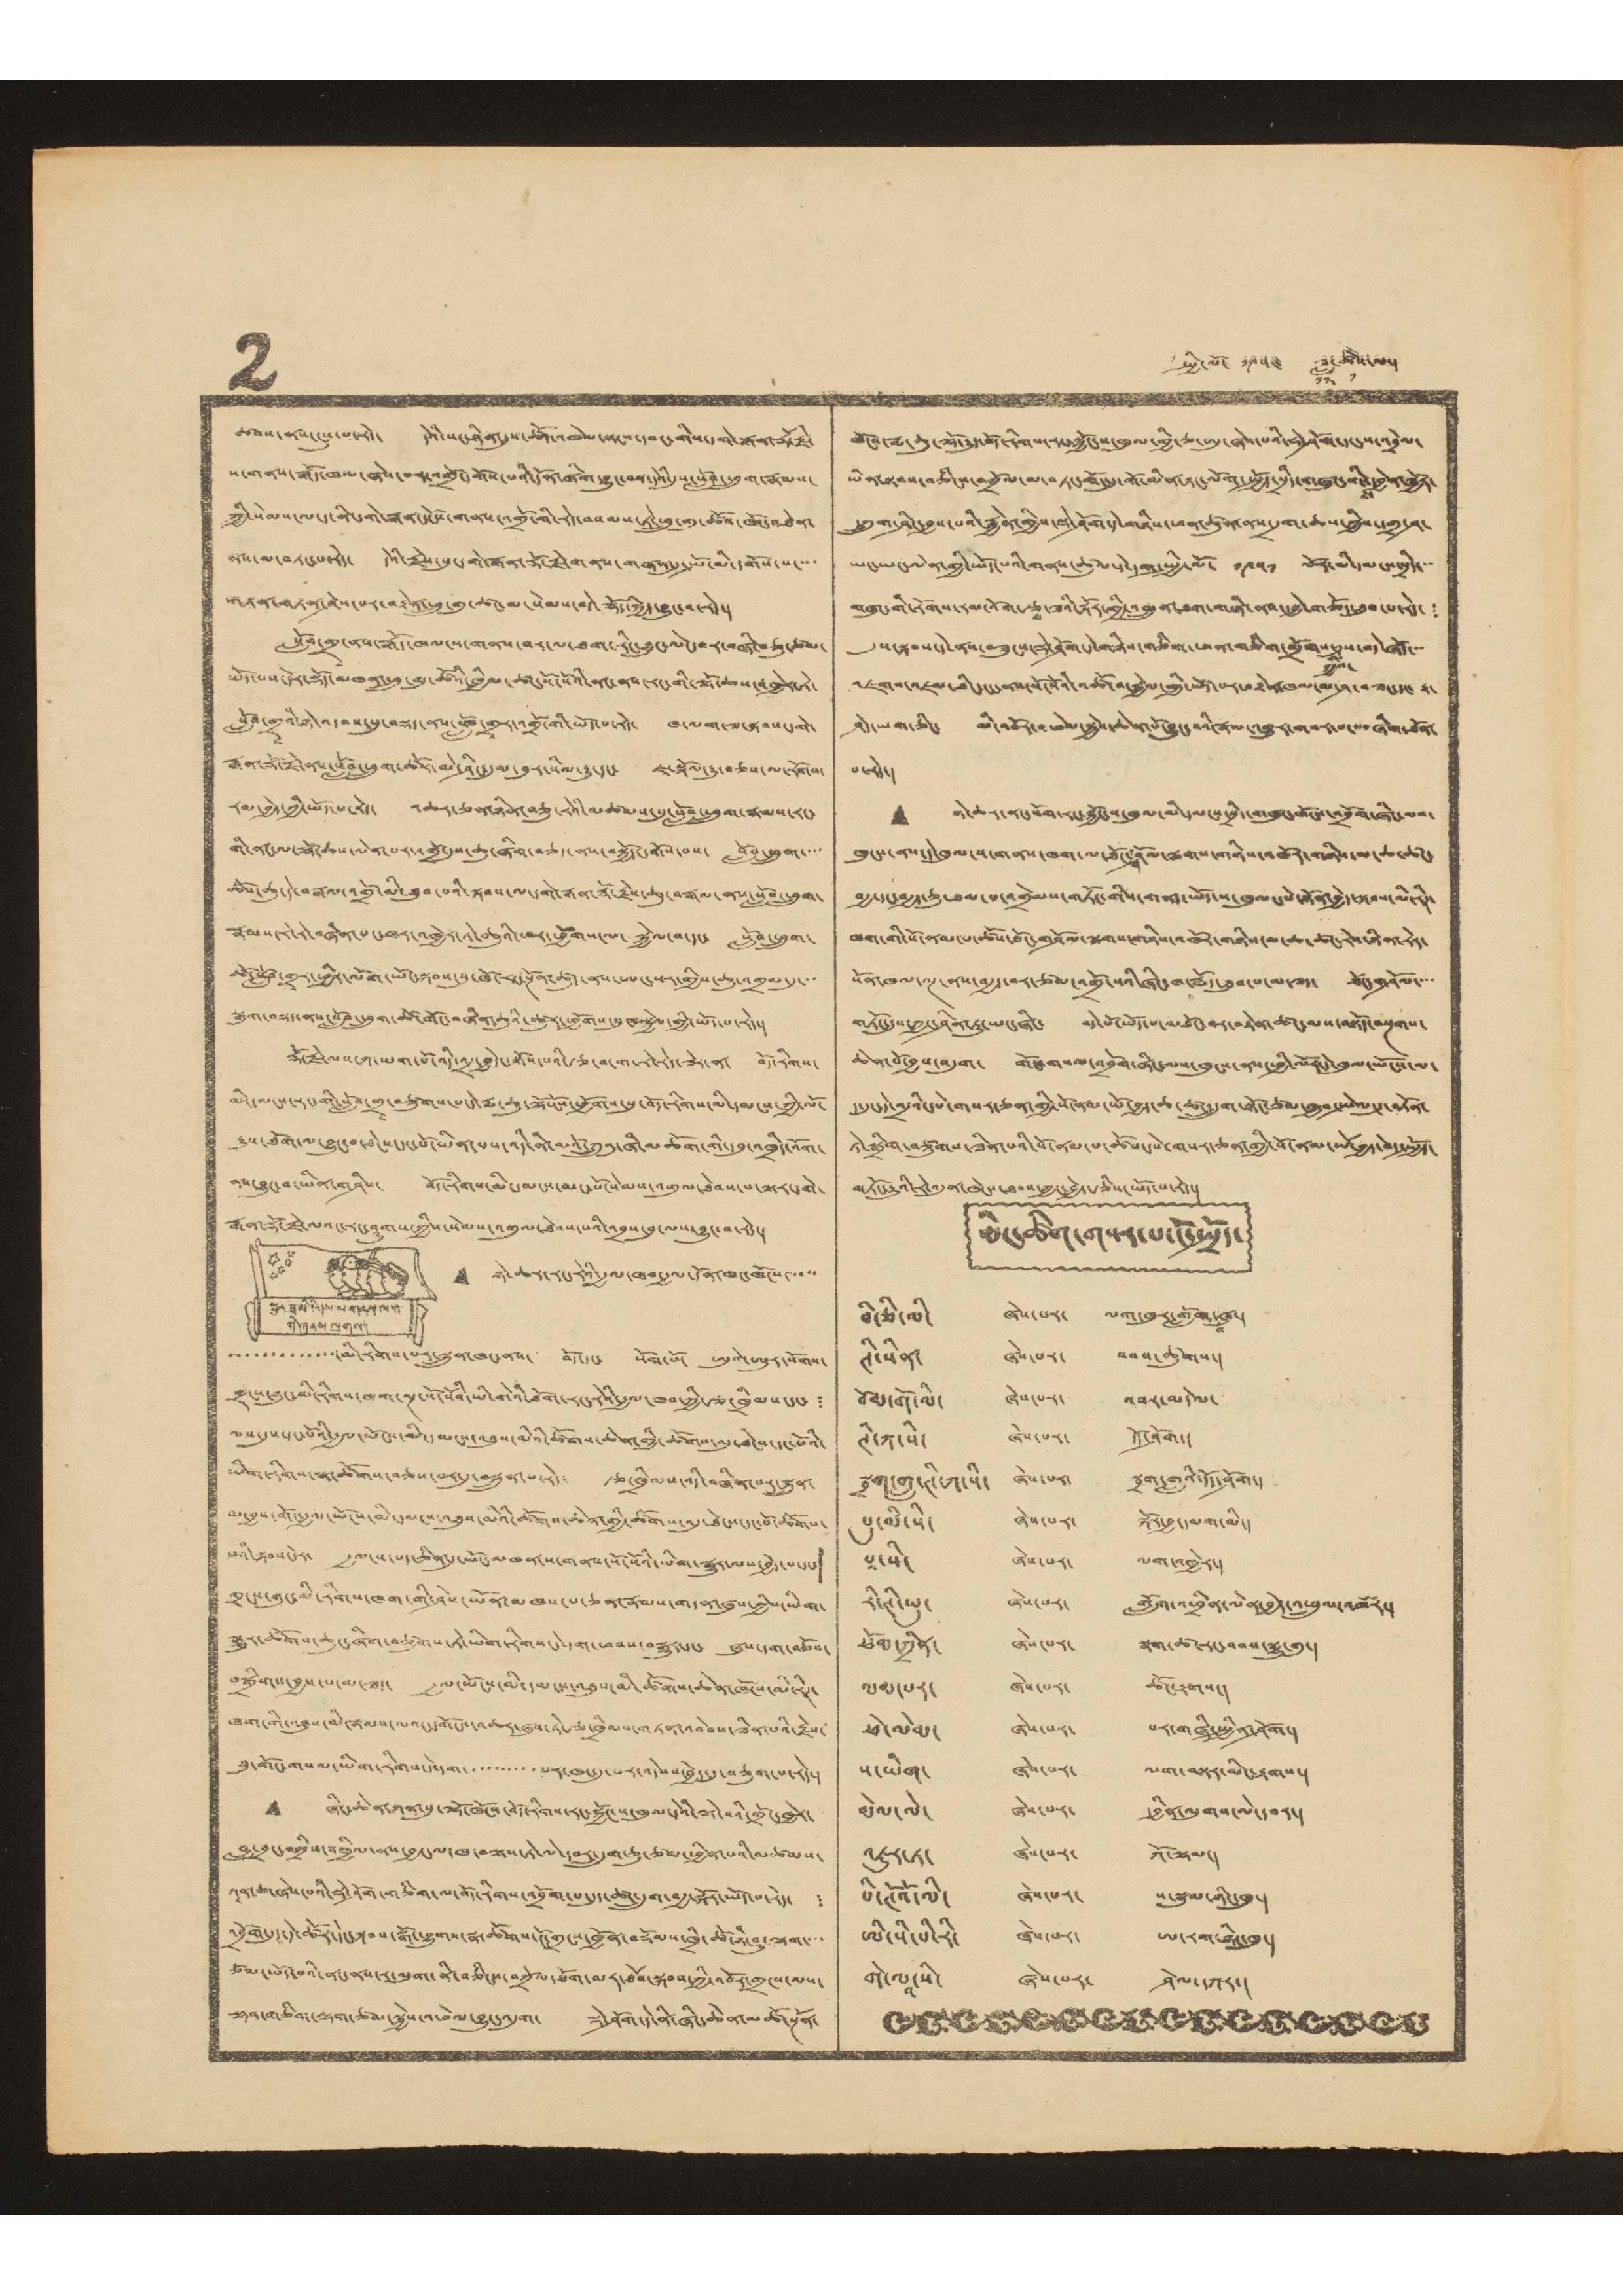2 སྤྱི་ལོ་ ༡༩༥༤ ཟླ་
༡༢
ཚེས་
༡
ལ་།
ཚབས་ནས་ངུས་པ་རེད་ དེའི་སང་ཉིན་དུས་ཚོད་འཁེལ་སྟངས་དབང་གིས་དགེ་རྒན་རྡོ་རྗེ་
ས་གནས་རྒོད་ཁལ་ཞེས་པར་འགྲོ་དགོས་པའི་དོན་ཞིག་བྱུང་བས་དེའི་དུས་སློབ་ཕྲུག་རྣམས་
ཀྱི་སེམས་ལ་ད་ནི་དགེ་རྒན་དངོས་གནས་འགྲོ་གི་རེད་བསམས་ཏེ་ཕྲུ་གུ་ཚོས་ཁོང་འཐེན་
ནས་མ་བཏང་པ་རེད་ དེའི་རྗེས་སུ་དགེ་རྒན་རྡོ་རྗེ་གནས་གཞན་དུ་སྤོ་མི་དགོས་པ་་་་
གཏན་གཏན་ཤེས་པར་བརྟེན་ཕྲུ་གུ་ཚང་མ་སེམས་བདེ་ལྷོད་སྐྱིད་བྱུང་བ་རེད་།
སློབ་གྲྭ་ནས་རྒོད་ཁལ་ས་གནས་བར་ལ་ཐག་རིང་ཐུང་ལེ་དབར་བཞི་བཅུ་ཙམ་
ཡོད་པས་དེར་སྡོད་མཁན་ཕྲུ་གུ་ཚོའི་ཁྱིམ་ཚང་སོ་སོའི་ནང་ནས་རང་གི་ལྟོ་ཆས་འཁྱེར་ཏེ་
སློབ་གྲྭའི་ཉེ་འདབས་ནས་སློབ་གྲྭར་འགྲོ་གི་ཡོད་པ་རེད་ ཁ་ལག་ཟ་སྐབས་དགེ་
རྒན་རྡོ་རྗེ་ནས་སློབ་ཕྲུག་ཚོར་མེ་ཤིང་དུམ་བུར་སིལ་རྒྱུ་དང་ ཇ་སྐོལ་རྒྱུ་བཅས་ལ་རོགས་
རམ་བྱེད་ཀྱི་ཡོད་པ་རེད་ འཆར་ཅན་ཉིན་བཅུ་རེའི་མཚམས་སུ་སློབ་ཕྲུག་རྣམས་རང་
གི་ནང་ལ་ལྟོ་ཆས་ལེན་པར་འགྲོ་དུས་ཆུ་ཞིག་བཅད་ནས་བསྐྱོད་དགོས་པས་ སློབ་ཕྲུག་་་་
ཚོས་ཆུ་དེ་བརྒལ་འགྲོ་མི་ཐུབ་པའི་སྐབས་ལ་དགེ་རྒན་རྡོ་རྗེས་ཆུ་བརྒལ་ནས་སློབ་ཕྲུག་
རྣམས་རེ་རེ་བཞིན་པང་ཁར་འཁྱེར་ཏེ་ཆུའི་ཕར་ཕྱོགས་ལ་སྐྱེལ་བ་དང་ སློབ་ཕྲུག་
ཚོ་སློབ་གྲྭར་ཕྱིར་ལོག་ཡོང་སྐབས་སུ་ཁོ་རང་སྔོན་ཚུད་ནས་ཨང་སར་གྱོས་ཆུ་འགྲམ་དུ་་་
སྒུག་བསྡད་ནས་སློབ་ཕྲུག་ཚོ་གོང་བཞིན་ཆུའི་ཚུར་ཕྱོགས་སུ་བསྐྱེལ་གྱི་ཡོད་པ་རེད་།
རྡོ་རྗེ་ལས་ཀ་ཡག་པོ་འདི་འདྲ་བྱེད་དགོས་པའི་རྩ་བ་ག་རེ་རེད་ཟེར་ན་ བོད་རིགས་
མི་དམངས་རང་གི་སློབ་གྲྭ་བཙུགས་པ་དེ་རྨ་ཆུ་ལྷོ་ངོས་ཕྱོགས་སུ་བོད་རིགས་མི་དམངས་ཀྱི་ལོ་
རྒྱུས་ཐོག་ལ་བྱུང་བ་ཐེངས་དང་པོ་ཡིན་པས་འདི་ནི་མའོ་ཀྲུའུ་ཞི་མཆོག་གི་དབུ་འཁྲིད་འོག་
ནས་བྱུང་བ་ཡིན་གཤིས་ བོད་རིགས་མི་དམངས་མང་པོ་སེམས་འགུལ་ཐེབས་པ་ལྟར་དགེ་
རྒན་རྡོ་རྗེ་ལའང་རང་ཤུགས་ཀྱིས་སེམས་འགུལ་ཐེབས་པའི་འབྲས་བུ་ལས་བྱུང་བ་རེད་།
སྤུན་ཟླ་མི་རིགས་ལ་གནས་ཁག་
གི་གནས་ལུགས་།
• ཉེ་ཆར་རང་རེའི་རྒྱལ་ཁབ་རྒྱལ་དོན་ཁང་ཁོངས་་་་་
་་་་་་་་་་་་་་མི་རིགས་པར་སྐྲུན་ཁང་ནས་ བོད་དང་ སོག་པོ་ ཨུའེ་ཨུར་སོགས་
གྲངས་ཉུང་མི་རིགས་ཁག་ལྔ་སོ་སོའི་ཡི་གེའི་ཐོག་རངག་རེའི་རྒྱལ་ཁབ་ཀྱི་རྩ་ཁྲིམས་དང་ ་
ལས་དུས་དང་པོའི་རྒྱལ་ཡོངས་མི་དམངས་འཐུས་མིའི་ཚོགས་ཆེན་གྱི་ཚོགས་འདུ་ཐེངས་དང་པོའི་
ཡིག་རིགས་སྣ་ཚོགས་བཅས་པར་དུ་བསྐྲུན་པ་རེད་ རྩ་ཁྲིམས་འདི་བཞིན་པར་སྐྲུན་
མ་བྱས་གོང་རྒྱལ་ཡོངས་མི་དམངས་འཐུས་མིའི་ཚོགས་ཆེན་གྱི་ཚོགས་འདུ་ཐེངས་དང་པོ་ཚོགས་
པའི་སྐབས་དེར་ རྒྱལ་ས་པད་ཅིན་དུ་ཡོང་མཁན་གནས་སོ་སོའི་ཡིག་སྒྱུར་ལས་བྱེད་པ་དང་
གྲངས་ཉུང་མི་རིགས་ཁག་གི་ཤེས་ཡོན་མཁས་པ་ཅན་རྣམས་གདན་ཞུས་ཀྱིས་ཡིག་
སྒྱུར་ཚོགས་ཆུང་ཞིག་བཙུགས་ཏེ་ཡིག་རིགས་དེ་དག་ཕབས་བསྒྱུར་དང་ ཞུས་དག་བཅོས་
བསྒྲིགས་བྱས་པ་མ་ཟད་ རྒྱལ་ཡོངས་མི་དམངས་འཐུས་མི་ཚོགས་ཆེན་ཁོངས་མི་རཊ་
ཁག་གི་འཐུས་མི་རྣམས་ལའང་གོངས་འཆར་ཞུས་ཏེ་རྩ་ཁྲིམས་གཏན་འབེབས་ཟིན་པའི་རྗེས་
སུ་གོང་གསལ་ཡིག་རིགས་དེ་དག་་་་་་་་་་པར་ཁང་དུ་པར་འདེབས་བྱེད་དུ་བཅུག་པ་རེད་།
• ཞིང་ཆེན་ཀན་སུ་ལྷོ་ཁོངས་བོད་རིགས་རང་སྐྱོང་ས་ཁུལ་དེའི་ལྟེ་བའི་གྲོང་ཁྱེར་
བླ་བྲང་བཀྲིས་འཁྱིལ་ནས་བྱང་ལ་ཁ་བལྟས་ཏེ་ལེ་དབར་དྲུག་ཅུ་ཙམ་ཕྱིན་པའི་མཚམས་
ཀཱན་རྩ་ཞེས་པའི་སྡེ་ཤོག་གཅིག་ལ་བོད་རིགས་འབྲོག་པ་དུད་ཚང་དྲུག་བརྒྱ་སྐོར་ཡོད་པ་རེད་ ་
འབྲོག་དུད་དེ་ཚོར་དེང་སྐབས་སྒོ་ཕྱུགས་སྣ་ཚོགས་ངོ་གྲངས་ཁྱོན་བསྡོམས་ཁྲི་ཚོ་ཉི་ཤུ་ལྷག་་་་
ཙམ་ཡོད་པའི་ནང་ནས་ར་ལུག་ནི་བཅིངས་བཀྲོལ་ཐོག་མར་ཐོབ་སྐབས་ཀྱི་འབོར་གྲངས་ལས་
ལྷག་གཅིག་ལྷག་ཙམ་སྐྱེས་འཕེལ་བྱུང་འདུག་ སྡེ་ཤོག་དེ་ནི་ཞིང་ཆེན་མཚོ་སྔོན་
ཁོངས་རྨ་ཆུ་ལྷོ་རྒྱུད་བོད་རིགས་རང་སྐྱོང་ས་ཁུལ་གྱི་ཅ་ཨུ་ཞེས་པའི་སྡེ་ཤོག་དང་ས་འབྲེལ་
ཡོན་སྟབས་བཅིངས་བཀྲོལ་མ་བཏང་གོང་དུ་གོ་མིན་དང་ལོག་སྤྱོད་སྲིད་གཞུང་ག
ས
་དབྱེན་སྦྱོར་
དཀྲུག་ཤིང་བྱས་པའི་རྐྱེན་གྱིས་སྡེ་ཤོག་དེ་གཉིས་ཕན་ཚུན་ནས་དྲག་ཆས་ཀྱིས་དགྲ་ཤ་
ཡང་ཡང་ལེན་གྱི་ཡོད་པའི་གནས་ཚུལ་དེ་དག་སྤྱི་ལོ་ ༡༩༥༡ ལོར་མི་དམངས་སྲིད་་་
གཞུང་གི་རོགས་རམ་འོག་རྩྭ་ཟའི་སྐོར་གྱི་འཁྲུན་ཐག་གཞི་ནས་དབྱེ་གཅོད་ཐུབ་པ་རེད་ ་
དུས་སྐབས་དེ་ནས་བཟུངས་སྡེ་ཤོག་དེ་གཉིས་གཅིག་ཕན་གཅིག་གྲོགས་
ཀྱིས་
དུས་བདེ་ཞོད་་
འཇགས་འཇམ་ཐིང་ངང་ནས་སོ་སོའི་འཚོ་བ་སྐྱེལ་གྱི་ཡོད་པར་བརྟེན་ཁལ་མ་ཤ་བཟང་དང་ རྟ་
ཤེད་ཡག་ཅིང་ མི་འབོར་འཕེལ་སྐྱེས་ཆེན་པོ་བྱུང་བའི་རྣམ་འགྱུར་གསར་པ་་་་ཞིག་ཐོན་
པ་རེད་།
• ཉེ་ཆར་ནང་སོག་རང་སྐྱོང་ས་ཁུལ་མི་དམངས་སྲིད་གཞུང་ཁོངས་འབྲོག་ཞིང་ལས་
ཁུངས་ནས་དེ་ཁུལ་ས་གནས་ཁག་ལ་ཐོང་
ག
ཤོམ་ལྕགས་གཉིས་འཁོར་གཉིས་མ་ཆ་ཚང་
བརྒྱ་དང་བརྒྱད་ཅུ་ཐམ་པ་འགྲེམས་གཏོང་གིས་གནད་ཡོད་ས་ཁུལ་པེ་སྟོན་བྱེད་སྐབས་མི་རིཊ་
ཁག་གི་སོ་ནམ་པ་ཚོས་ཐོང་གཤོམ་ལྕགས་གཉིས་འཁོར་གཉིས་མ་ཆ་ཚང་རེ་ཉིན་རེར་
སོན་ཁལ་ལྔ་ནས་བརྒྱད་བར་ཙམ་འགྲོ་སའི་ཞིང་ཁ་རྨོད་ཐུབ་པ་མ་ཟད་ ཐོང་གཤོམ་་་་
གཏོང་དུས་ཀྱང་ཤིན་ཏུ་ཡང་ཞིང་ བདེ་པོ་ཡོད་པ་མཐོང་བར་བརྟེན་ཚང་མས་བསྟོད་བསྔགས་
ཆེན་པོ་བྱས་འདུག་ གོང་གསལ་འབྲོག་ཞིང་ལས་ཁུངས་ནས་ཕྱི་ལོར་དེ་ཁུལ་ཡོངས་ལ་
ད་དུང་དེ་འདྲའི་དཔེ་གསར་ཅན་གྱི་སོ་ནམ་ཡོ་བྱད་ཆ་ཚང་དྲུག་སྟོང་ཙམ་ཁྱབ་སྤེལ་དུ་བཏོན་
ཏེ་སྒྲིག་བཙུགས་ཟིན་པའི་སོ་ནམ་པ་ཚོས་དཔེ་གསར་ཅན་གྱི་སོ་ནམ་ཡོ་བྱད་བདེ་སྤྱོད་
གཏོང་རྒྱུའི་རེ་འདུན་ཁེངས་ཐབས་ཀྱང་བྱེད་རྩིས་ཡོད་པ་རེད་།
མིང་ཚིག་གསར་པ་ངོ་སྤྲོད་
བི་ཅི་ལི་ ཞེས་པར་ ལག་ཁུར་གློག་
བ
ཞུ་།
ཊི་སིན་ ཞེས་པར་ བབས་ཚུགས་།
བོམ་གོ་ལི་ ཞེས་པར་ འབར་མདེལ་
ཊི་ཀ་སི་ ཞེས་པར་ འོད་ཤོག་།
སྦྲག་གླ་ཊི་ཀ་སི་ ཞེས་པར་ སྦྲག་གླའི་འོད་ཤོག་།
པུ་ལི་སི་ ཞེས་པེ་ སྐོར་བྱ་དམག་མི་།
པཱ་སི་ ཞེས་པར་ ལག་འཁྱེར་།
རི་ཊི་ཡུ་ ཞེས་པར་ གློག་འཕྲིན་ལེན་བྱེད་འཕྲུལ་འཁོར་།
ཕོམ་ཀྲིན་ ཞེས་པར་ སྣག་ཚ་རང་བབས་སྨྱུ་གུ་།
ལམ་པར་ ཞེས་པར་ ཚོང་རྟགས་།
ཕེ་ལེབ་ ཞེས་པར་ པར་གཞི་སྤྱིན་ཤོག་།
ས་ཡིག་ ཞེས་པར་ ལག་བསྟར་མིང་རྟགས་།
མེལ་ལེ་ ཞེས་པར་ དབྱིན་ལུགས་ལེ་དབར་།
འཇུར་ཏ་ ཞེས་པར་ ཀོ་ལྷམ་།
པི་ཊོའོ་མི་ ཞེས་པར་ ས་སྣུམ་ཉིང་ཁུ་།
ཨི་སི་པི་རི་ ཞེས་པར་ ཨ་རག་ཉིང་ཁུ་།
གེ་ལཱ་སི་ ཞེས་པར་ ཤེལ་དཀར་།
